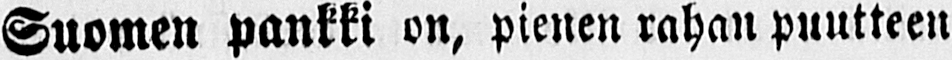Suomen pankki on, pienen rahan puutteen
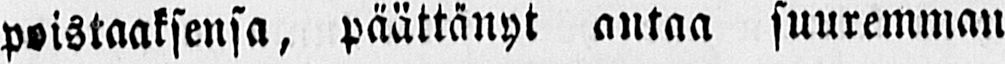poistaaksensa, päättänyt antaa suuremman
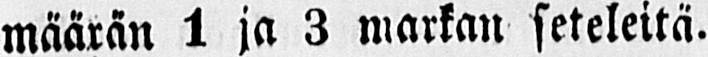määrän 1 ja 3 markan seteleitä.
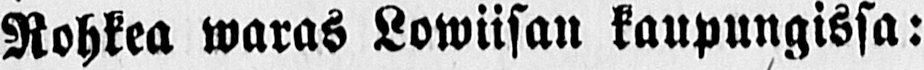Rohkea waras Lowiisan kaupungissa:
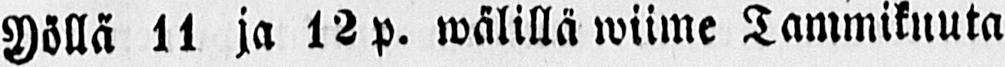Yöllä 11 ja 12 p. wälillä wiime Tammikuuta
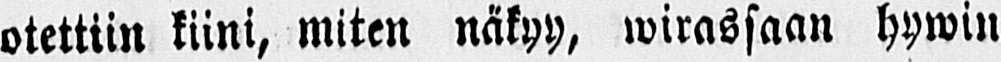otettiin kiini, miten näkyy, wirassaan hywin
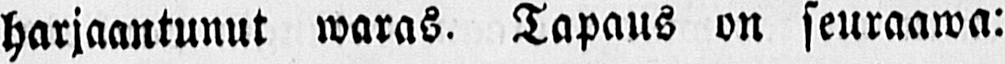harjaantunut waras. Tapaus on seuraawa:
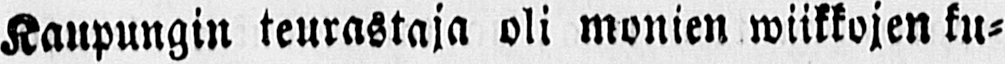Kaupungin teurastaja oli monien wiikkojen ku-
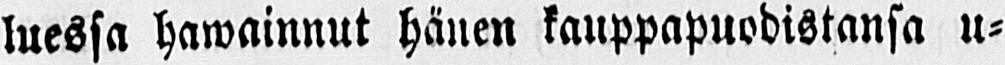luessa hawainnut hänen kauppapuodistansa u-
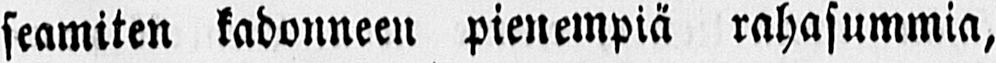seamiten kadonneen pienempiä rahasummia,
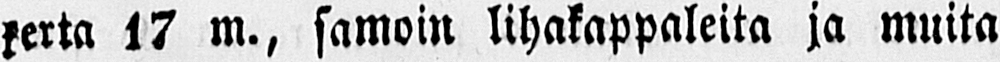kerta 17 m., samoin lihakappaleita ja muita
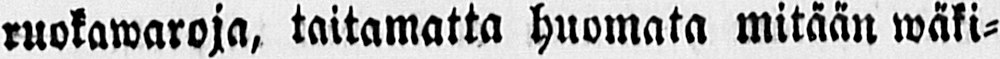ruokawaroja, taitamatta huomata mitään wäki-
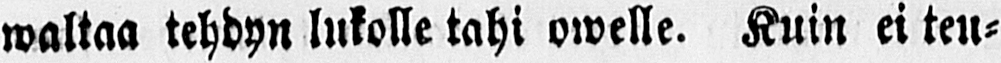waltaa tehdyn lukolle tahi owelle. Kuin ei teu-
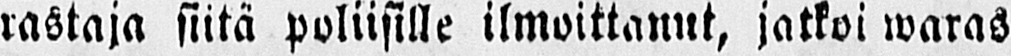rastaja siitä poliisille ilmoittanut, jatkoi waras
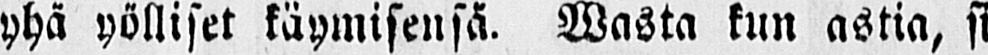yhä yölliset käymisensä. Wasta kun astia, si-
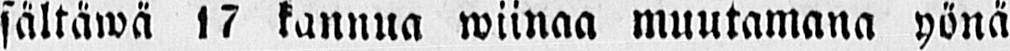sältäwä 17 kannua wiinaa muutamana yönä
